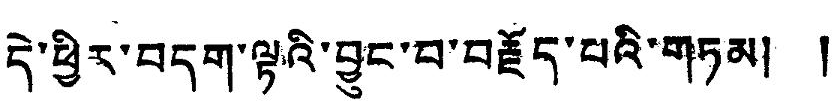དེ་ཕྱིར་བདག་ལྟའི་བྱུང་བ་བརྗོད་པའི་གཏམ། །
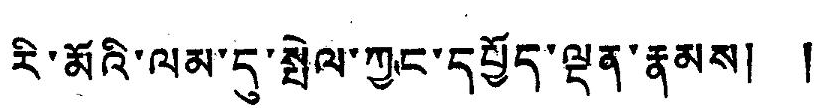རི་མོའི་ལམ་དུ་སྤེལ་ཀྱང་དཔྱོད་ལྡན་རྣམས། །
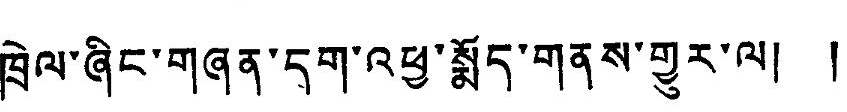ཁྲེལ་ཞིང་གཞན་དག་འཕྱ་སྨོད་གནས་གྱུར་ལ། །
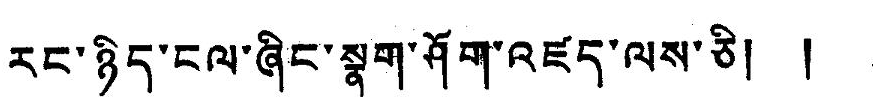རང་ཉིད་ངལ་ཞིང་སྣག་ཤོག་འཛད་ལས་ཅི། །
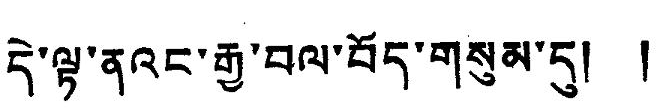དེ་ལྟ་ནའང་རྒྱ་བལ་བོད་གསུམ་དུ། །
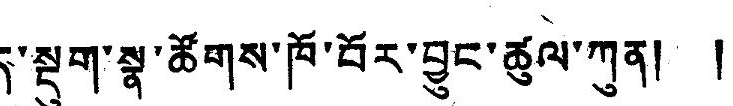སྐྱིད་སྡུག་སྣ་ཚོགས་ཁོ་བོར་བྱུང་ཚུལ་ཀུན། །
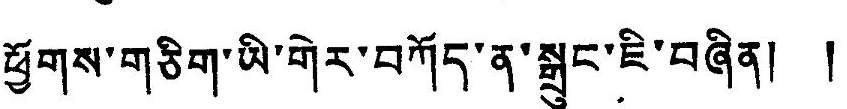ཕྱོགས་གཅིག་ཡི་གེར་བཀོད་ན་སྒྲུང་ཇི་བཞིན། །
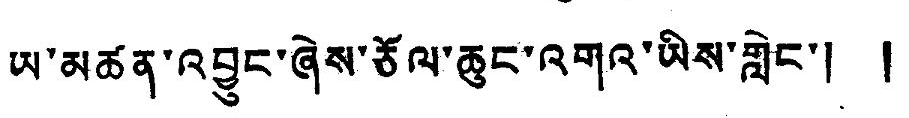ཡ་མཚན་འབྱུང་ཞེས་ཅོལ་ཆུང་འགའ་ཡིས་གླེང་། །
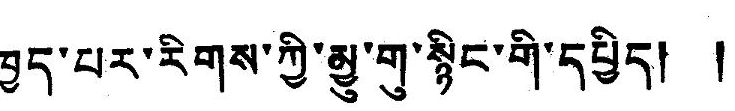ཁྱད་པར་རིགས་ཀྱི་མྱུ་གུ་སྙིང་གི་དཔྱིད། །
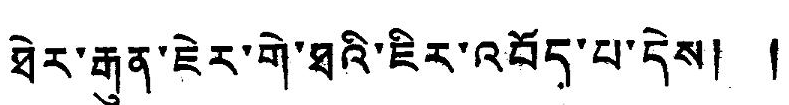ཐེར་རྒུན་ཇེར་གེ་ཐའི་ཇིར་འབོད་པ་དེས་། །
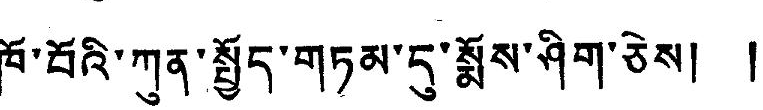ཁོ་བོའི་ཀུན་སྤྱོད་གཏམ་དུ་སྨོས་ཤིག་ཅེས། །
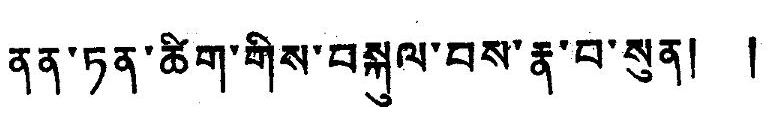ནན་ཏན་ཚིག་གིས་བསྐུལ་བས་རྣ་བ་སུན། །
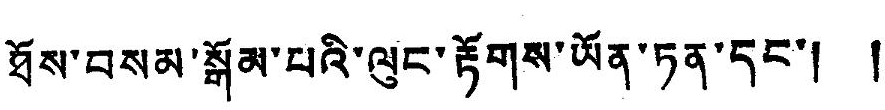ཐོས་བསམ་སྒོམ་པའི་ལུང་རྟོགས་ཡོན་ཏན་དང་། །
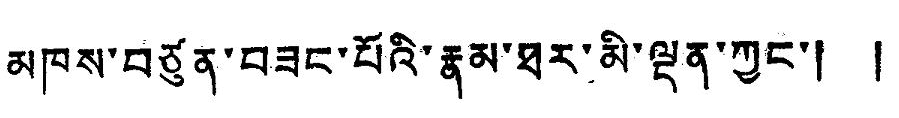མཁས་བཙུན་བཟང་པོའི་རྣམ་ཐར་མི་ལྡན་ཀྱང་། །
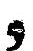5
